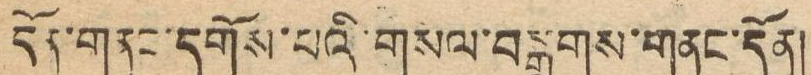དོན་གནང་དགོས་པའི་གསལ་བསྒྲགས་གནང་དོན།
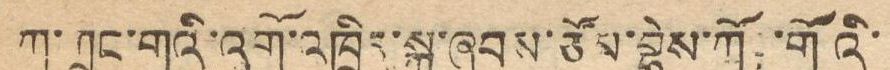ཀ་ཀྲང་གའི་འགོ་འཁྲིད་སྐུ་ཞབས་ཙོམ་བྷེས་ཀོང་གོའི་
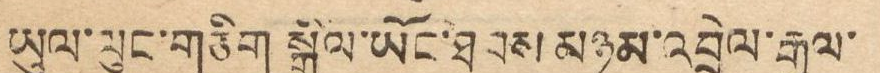ཡུལ་ལུང་གཅིག སྒྲིལ་ཡོང་ཐབས མཉམ་འབྲེལ་རྒྱལ་
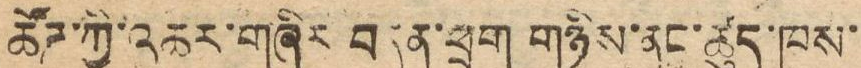ཚོཊ་ཀྱི་འཆར་གཞིར བདུན་ཕྲག གཉིས་ནང་ཚུད་ཁས་
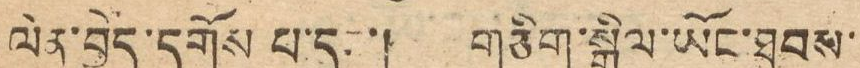ལེན་བྱེད་དགོས པ་དང་། གཅིག་སྒྲིལ་ཡོང་ཐབས་
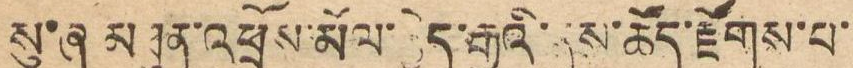སུ་ཞ མཐུན་འཕྲོས་མོལ་བྱེད་རྒྱུའི་དུས་ཚོད་རྫོགས་པ་
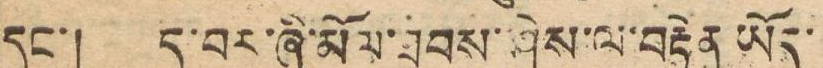དང་། ད་བར་ཞི་མོལ་ཐབས་ཤེས་ལ་བརྟེན ཡོད།
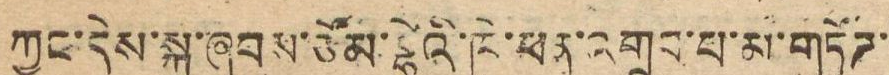ཀྱང་དེས་སྐུ་ཞབས་ཙོམ་བྷེའི་ཁེ་ཕན་འགྲུབ་པ་མ་གཏོཊ་
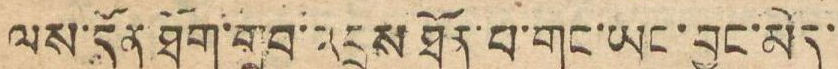ལས་དོན་ཐོག་གྲུབ་འབྲས ཐོན་པ་གང་ཡང་བྱུང་མེད་
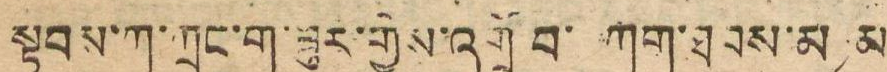སྟབས་ཀ་ཀྲང་ག་ཟུར་གྱིས་འགྲོ བ་ ཀག་ཐབས་མཉམ
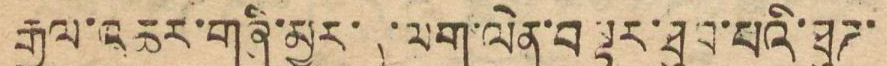རྒྱལ་འཆར་གཞི་མྱུར་དུ་ལག་ལེན་བསྟར་ཐུབ་པའི་ཐུཊ་
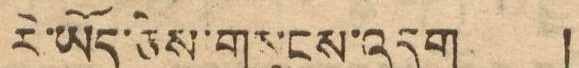རེ་ཡོད་ཅིས་གསུངས་འདུག །
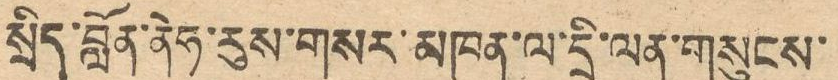སྲིད་བློན་ནེཧ་རུས་གསར་མཁན་ལ་དྲི་ལན་གསུངས།
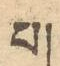པ།
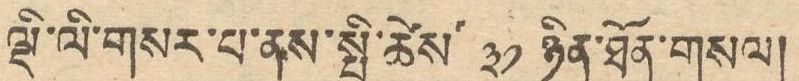ལྡི་ལླི་གསར་པ་ནས་སྤྱི་ཚེས་ ༣༡ ཉིན་ཐོན་གསལ།
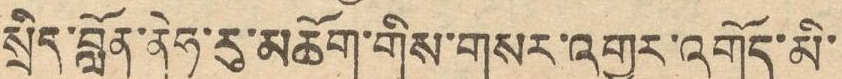སྲིད་བློན་ནེཧ་རུ་མཆོག་གིས་གསར་འགྱུར་འགོད་མི་
